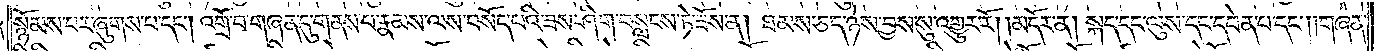སྙོམས་པར་ཞུགས་པ་དང༌། འགྲོ་བ་གཞན་དུ་གནས་པ་རྣམས་ལས་བསོད་པའི་ཟས་ཤིག་བསླངས་ཏེ་ཟོས་ན། ཐམས་ཅད་ཉེས་བྱས་སུ་འགྱུར་རོ། །མདོར་ན། སྐད་དང་ལུས་དང་དབེན་པ་དང༌། །གཞན་
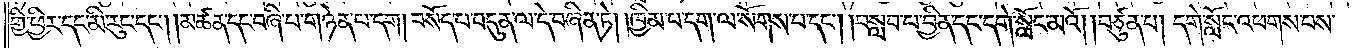གྱི་ཕྱིར་དང་མི་རུང་དང༌། །མཚན་དང་བཞི་པ་གཉེན་པ་དག །བསོད་པ་བདུན་ལ་དེ་བཞིན་ཏེ། །ཁྱིམ་པ་དག་ལ་སོགས་པ་དང༌། །བསླབ་པ་བྱིན་དང་དགེ་སློང་མའོ། །བཙུན་པ། དགེ་སློང་འཕགས་པས་
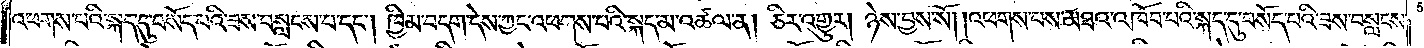འཕགས་པའི་སྐད་དུ་བསོད་པའི་ཟས་བསླངས་པ་དང༌། ཁྱིམ་བདག་དེས་ཀྱང་འཕགས་པའི་སྐད་མ་འཚལ་ན། ཅིར་འགྱུར། ཉེས་བྱས་སོ། །འཕགས་པས་མཐའ་འཁོབ་པའི་སྐད་དུ་བསོད་པའི་ཟས་བསླངས་
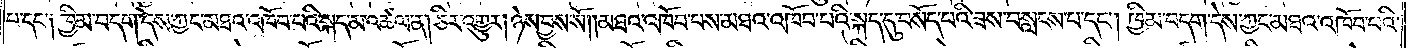པ་དང༌། ཁྱིམ་བདག་དེས་ཀྱང་མཐའ་འཁོབ་པའི་སྐད་མ་འཚལ་ན། ཅིར་འགྱུར། ཉེས་བྱས་སོ། །མཐའ་འཁོབ་པས་མཐའ་འཁོབ་པའི་སྐད་དུ་བསོད་པའི་ཟས་བསླངས་པ་དང༌། ཁྱིམ་བདག་དེས་ཀྱང་མཐའ་འཁོབ་པའི་
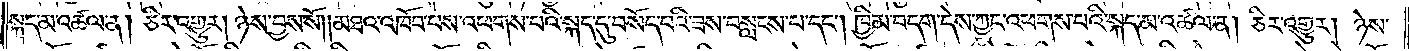སྐད་མ་འཚལ་ན། ཅིར་འགྱུར། ཉེས་བྱས་སོ། །མཐའ་འཁོབ་པས་འཕགས་པའི་སྐད་དུ་བསོད་པའི་ཟས་བསླངས་པ་དང༌། ཁྱིམ་བདག་དེས་ཀྱང་འཕགས་པའི་སྐད་མ་འཚལ་ན། ཅིར་འགྱུར། ཉེས་
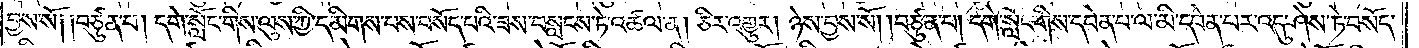བྱས་སོ༑ ༑བཙུན་པ། དགེ་སློང་གིས་ལུས་ཀྱི་དམིགས་པས་བསོད་པའི་ཟས་བསླངས་ཏེ་འཚལ་ན། ཅིར་འགྱུར། ཉེས་བྱས་སོ། །བཙུན་པ། དགེ་སློང་གིས་དབེན་པ་ལ་མི་དབེན་པར་འདུ་ཤེས་ཏེ་བསོད་
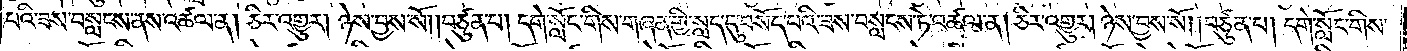པའི་ཟས་བསླངས་ནས་འཚལ་ན། ཅིར་འགྱུར། ཉེས་བྱས་སོ། །བཙུན་པ། དགེ་སློང་གིས་གཞན་གྱི་སླད་དུ་བསོད་པའི་ཟས་བསླངས་ཏེ་འཚལ་ན། ཅིར་འགྱུར། ཉེས་བྱས་སོ། །བཙུན་པ། དགེ་སློང་གིས་
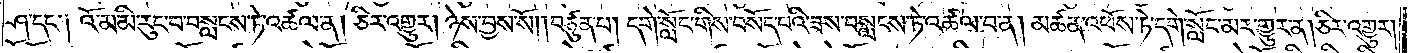ཤ་དང་༑ འོ་མ་མི་རུང་བ་བསླངས་ཏེ་འཚལ་ན། ཅིར་འགྱུར། ཉེས་བྱས་སོ། །བཙུན་པ། དགེ་སློང་གིས་བསོད་པའི་ཟས་བསླངས་ཏེ་འཚལ་བ་ན། མཚན་འཕོས་ཏེ་དགེ་སློང་མར་གྱུར་ན། ཅིར་འགྱུར།
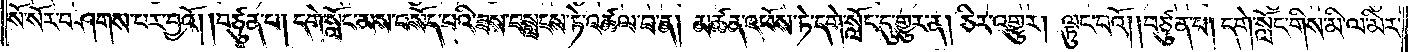སོ་སོར་བཤགས་པར་བྱའོ། །བཙུན་པ། དགེ་སློང་མས་བསོད་པའི་ཟས་བསླངས་ཏེ་འཚལ་བ་ན། མཚན་འཕོས་ཏེ་དགེ་སློང་དུ་གྱུར་ན། ཅིར་འགྱུར། ལྟུང་བའོ། །བཙུན་པ། དགེ་སློང་གིས་མི་ལ་མིར་
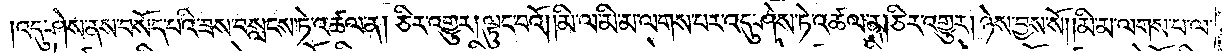འདུ་ཤེས་ནས་བསོད་པའི་ཟས་བསླངས་ཏེ་འཚལ་ན། ཅིར་འགྱུར། ལྟུང་བའོ། །མི་ལ་མི་མ་ལགས་པར་འདུ་ཤེས་ཏེ་འཚལ་ན། ཅིར་འགྱུར། ཉེས་བྱས་སོ། །མི་མ་ལགས་པ་ལ་
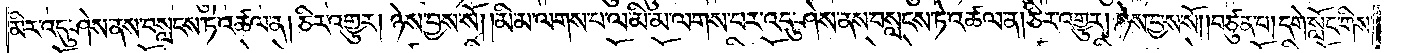མིར་འདུ་ཤེས་ནས་བསླངས་ཏེ་འཚལ་ན། ཅིར་འགྱུར། ཉེས་བྱས་སོ། །མི་མ་ལགས་པ་ལ་མི་མ་ལགས་པར་འདུ་ཤེས་ནས་བསླངས་ཏེ་འཚལ་ན། ཅིར་འགྱུར། ཉེས་བྱས་སོ། །བཙུན་པ། དགེ་སློང་གིས་
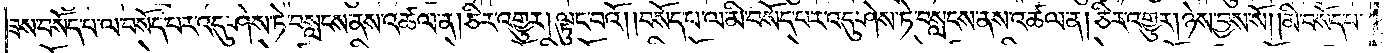ཟས་བསོད་པ་ལ་བསོད་པར་འདུ་ཤེས་ཏེ་བསླངས་ནས་འཚལ་ན། ཅིར་འགྱུར། ལྟུང་བའོ། །བསོད་པ་ལ་མི་བསོད་པར་འདུ་ཤེས་ཏེ་བསླངས་ནས་འཚལ་ན། ཅིར་འགྱུར། ཉེས་བྱས་སོ། །མི་བསོད་པ་
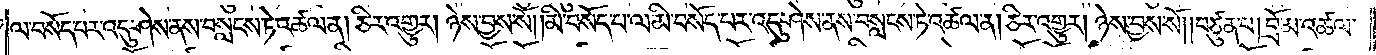ལ་བསོད་པར་འདུ་ཤེས་ནས་བསླངས་ཏེ་འཚལ་ན། ཅིར་འགྱུར། ཉེས་བྱས་སོ། །མི་བསོད་པ་ལ་མི་བསོད་པར་འདུ་ཤེས་ནས་བསླངས་ཏེ་འཚལ་ན། ཅིར་འགྱུར། ཉེས་བྱས་སོ། །བཙུན་པ། བྲོ་མ་འཚལ་
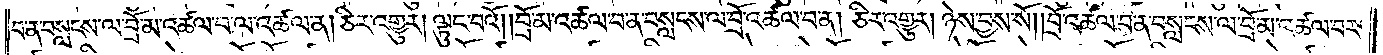བ་ན་བསླངས་ལ་བྲོ་མ་འཚལ་བ་ལ་འཚལ་ན། ཅིར་འགྱུར། ལྟུང་བའོ། །བྲོ་མ་འཚལ་བ་ན་བསླངས་ལ་བྲོ་འཚལ་བ་ན། ཅིར་འགྱུར། ཉེས་བྱས་སོ། །བྲོ་འཚལ་བ་ན་བསླངས་ལ་བྲོ་མ་འཚལ་བར་
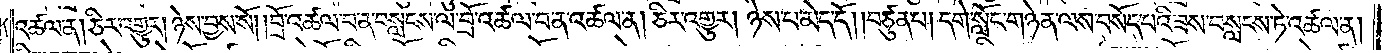འཚལ་ན། ཅིར་འགྱུར། ཉེས་བྱས་སོ། །བྲོ་འཚལ་བ་ན་བསླངས་ལ་བྲོ་འཚལ་བ་ན་འཚལ་ན། ཅིར་འགྱུར། ཉེས་པ་མེད་དོ། །བཙུན་པ། དགེ་སློང་གཉེན་ལས་བསོད་པའི་ཟས་བསླངས་ཏེ་འཚལ་ན།
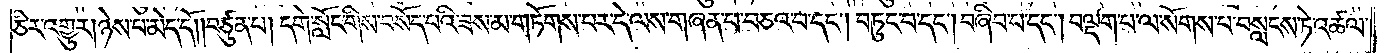ཅིར་འགྱུར། ཉེས་པ་མེད་དོ། །བཙུན་པ། དགེ་སློང་གིས་བསོད་པའི་ཟས་མ་གཏོགས་པར་དེ་ལས་གཞན་པ་བཅའ་བ་དང༌། བཏུང་བ་དང༌། བཞིབ་པ་དང༌། བལྡག་པ་ལ་སོགས་པ་བསླངས་ཏེ་འཚལ་
